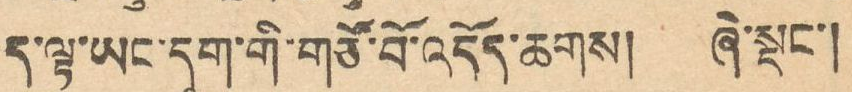ད་ལྟ་ཡང་དུག་གི་གཙོ་བོ་འདོད་ཆགས། ཞེ་སྡང་།
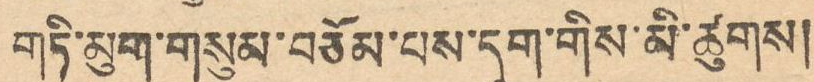གཏི་མུག་གསུམ་བཅོམ་པས་དུག་གིས་མི་ཚུགས།
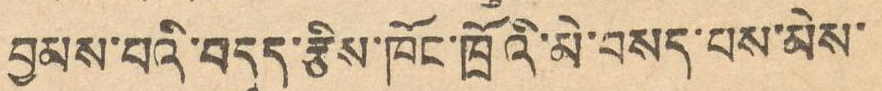བྱམས་པའི་བདུད་རྩིས་ཁོང་ཁྲོའི་མེ་བསད་པས་མེས་
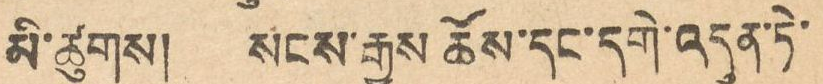མི་ཚུགས། སངས་རྒྱས ཆོས་དང་དགེ་འདུན་ཏེ་
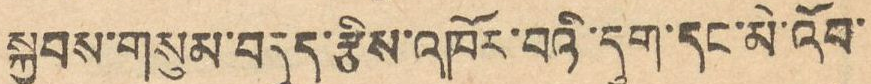སྐྱབས་གསུམ་བདུད་རྩིས་འཁོར་བའི་དུག་དང་མི་འོབ་
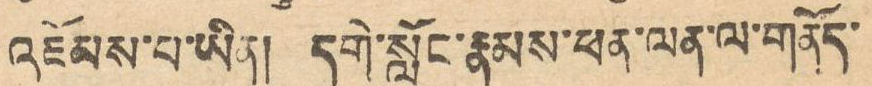འཇོམས་པ་ཡིན། དགེ་སློང་རྣམས་ཕན་ལན་ལ་གནོད་
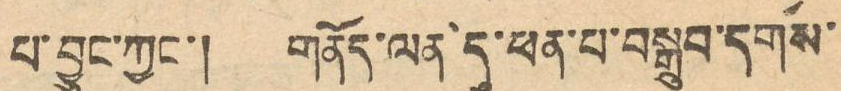པ་བྱུང་ཀྱང་། གནོད་ལན་དུ་ཕན་པ་བསྒྲུབ་དགོས་
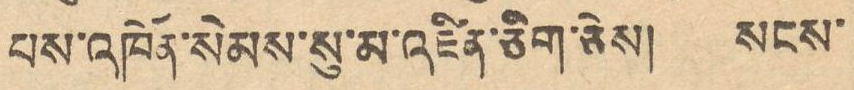པས་འཁོན་སེམས་སུ་མ་འཛིན་ཅིག་ཅེས། སངས་
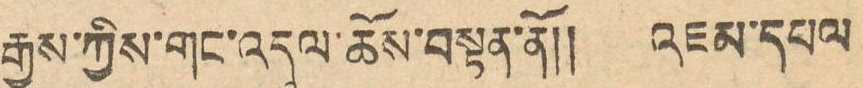རྒྱས་ཀྱིས་གང་འདུལ་ཆོས་བསྟན་ནོ།། འཇམ་དཔལ
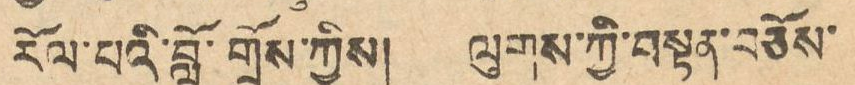རོལ་པའི་བློ་གྲོས་ཀྱིས། ལུགས་ཀྱི་བསྟན་བཅོས་
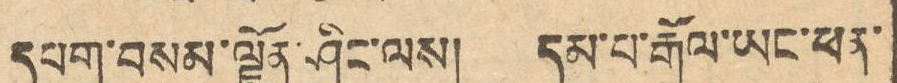དཔག་བསམ་ལྗོན་ཤིང་ལས། དམ་པ་རྒོལ་ཡང་ཕན་
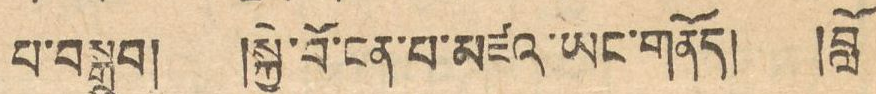པ་བསྒྲུབ། །སྐྱེ་བོ་ངན་པ་མཛའ་ཡང་གནོད། །བློ
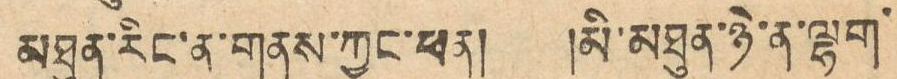མཐུན་རིང་ན་གནས་ཀྱང་ཕན། །མི་མཐུན་ཉེ་ན་ལྷག་
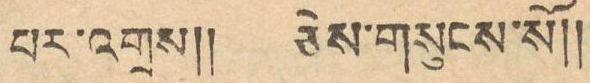པར་འགྲས།། ཅེས་གསུངས་སོ།།
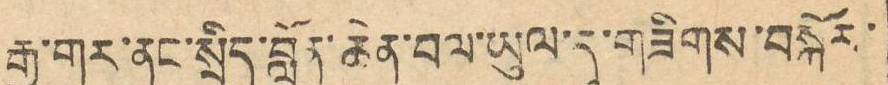རྒྱ་གར་ནང་སྲིད་བློན་ཆེན་བལ་ཡུལ་དུ་གཟིགས་བསྐོར་
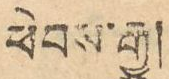ཕེབས་རྒྱུ།
